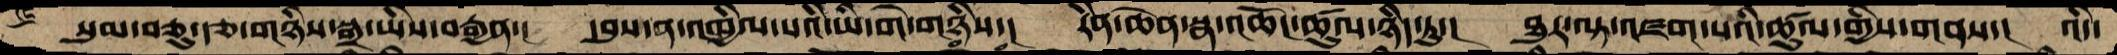སུམ་བཅུ་རྩ་གཉིས་སྒྲ་ཡིས་བརྒྱན་། དབུས་ན་འཁྱིལ་པའི་ཡི་གེ་གཉིས་། རིན་ཆེན་སྣ་འཆོང་ཚུལ་ཉིད་ཏུ་། ཐུར་ལྟ་འཛག་པའི་ཚུལ་གྱིས་གནས་། འདི་
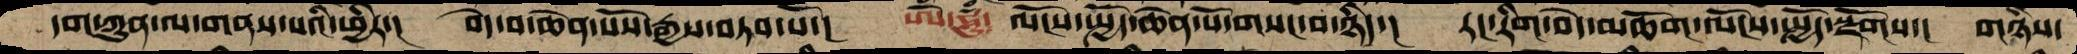དག་ཀུན་ལ་གནས་པའི་ཕྱིར་།  བདེ་བ་ཆེན་པོས་རྒྱས་བཏབ་པོ་།  ཨོཾ་ཧཱུཾ༴  ལོངས་སྤྱོད་ཆེན་པོ་གསང་བ་ཉིད་།  རང་རིག་བདེ་མཆོག་ལོངས་སྤྱོད་སྫོགས་།  གཉིས་
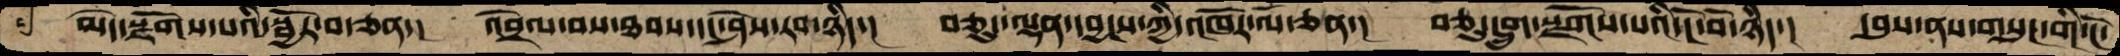མེད་སྫོགས་པའི་སྦྱོར་བ་ཅན་། འབྲེལ་བས་ཐབས་དང་ཤེས་རབ་ཉིད་། བཅུད་ལྡན་དབྱངས་ཀྱི་འཁོར་ལོ་ཅན་། བཅུ་དྲུག་སྫོགས་པའི་ངོ་བོ་ཉིད་། དབུས་ནས་གསུང་གི་ངོ་
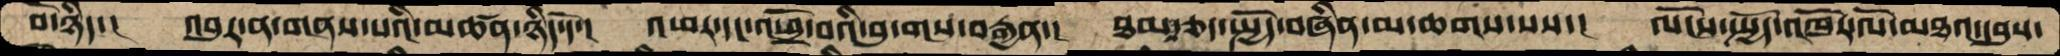བོ་ཉིད་། འབུར་ན་གནས་པའི་མཚན་ཉིད་དོ་། འཕར་དང་འཕྲོ་བའི་བུ་གས་བརྒྱན་། ཐམས་ཅད་སྤྱོད་བཞིན་མ་ཆགས་པས་། ལོངས་སྤྱོད་འཁོར་ལོ་མཐའ་དབུས་
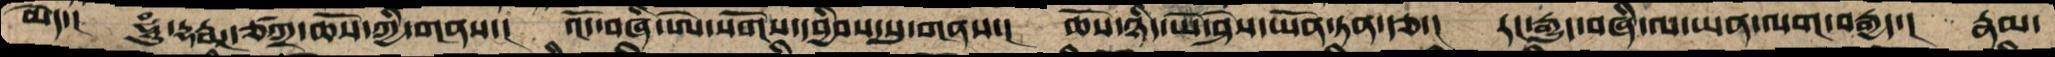མེད་།  ཧཱུཾ་དྷརྨཱ་ཙཀྲ་ཆོས་ཀྱི་གནས་།  འོད་བཞི་ཨེ་སོགས་དབྱིབས་སུ་གནས་།  ཆོས་ཉིད་ཡེ་ཤེས་ཡོན་ཏན་རྩ་།  རང་རྒྱུད་བཞི་ལ་ཡན་ལག་བརྒྱད་།  རྣམ་
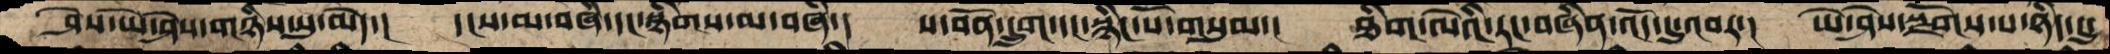ཤེས་ཡེ་ཤེས་གཉིས་སུ་མེད་།  དངས་མ་བཞི་དང་སྙིགས་མ་བཞི་།   ས་བོན་དྲུག་དང་སྙིང་པོ་གསུམ་།  ཐིག་ལེའི་རང་བཞིན་འོད་དུ་འབར་།  ཡེ་ཤེས་སྫོགས་པ་ཉིད་དུ་
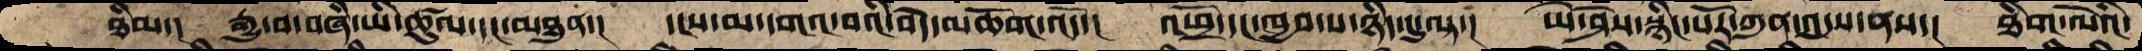ཐིམ་།  རྒྱུ་བ་བཞི་ཡི་ཚུལ་དང་མཐུན་།  དངས་མ་དགའ་བའི་བདེ་མཆོག་འོད་།  འཕྲོ་དང་ཁྱབ་པ་ཉིད་དུ་ལྟ་།  ཡེ་ཤེས་སྙིང་པོར་ཀུན་འདུས་ནས་།  ཐིག་ལེའི་
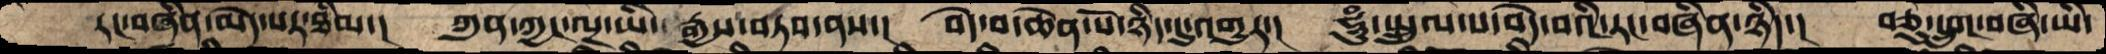རང་བཞིན་མེད་པར་ཐིམ་།  ཀུན་ཀྱང་ལྔ་ཡི་རྒྱས་བཏབ་ནས་།  བདེ་བ་ཆེན་པོ་ཉིད་དུ་འགྱུར་།  ཧཱུཾ་སྤྲུལ་པ་བདེ་བའི་རང་བཞིན་ཉིད་།  བཅུ་དྲུག་བཞི་ཡི་
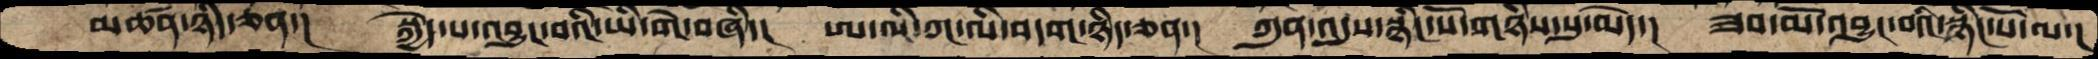མཚན་ཉིད་ཅན་།  སྐྱེད་པ་འབྱུང་བའི་ཡི་གེ་བཞི་།  ཨ་ལི་ཀ་ལི་བདག་ཉིད་ཅན་།  ཀུན་འདུས་སྙིང་པོ་གཉིས་སུ་མེད་།  ཟབ་མོ་འབྱུང་བའི་སྙིང་པོ་ལ་།
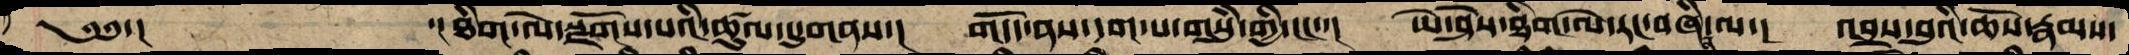༄༅་།   ་།ཐིག་ལེ་སྫོགས་པའི་ཚུལ་དུ་གནས་། གདོད་ནས་དག་པ་གསུཾ་གྱི་ངང་་། ཡེ་ཤེས་ཐིག་ལེ་རང་བཞིན་ལ་། འབྲས་བུའི་ཆོས་རྣམས་
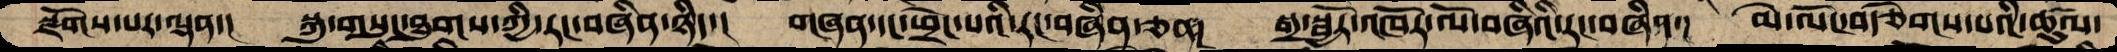སྫོགས་པར་ལྡན་།  སྐུ་གསུང་ཐུགས་ཀྱི་རང་བཞིན་ཉིད་།  གཞན་དང་ཕྲེང་པའི་རང་བཞིན་ཅན་།  སྒྲ་སྦྱོར་འཁོར་ལོ་བཞིའི་རང་བཞིན་།  མེ་ལོང་བརྩེགས་པའི་ཚུལ་
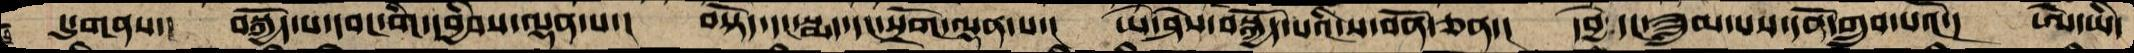དུ་གནས་། བསྐྱོད་པ་དབང་གི་དབྱིབས་ལྡན་པ་། བསྟོད་དང་སྨད་དང་སྲོག་ལྡན་པ་། ཡེ་ཤེས་བསྐྱོད་པའི་ས་བོན་ཅན་། དབྱེ་དང་ཟླུམ་པས་དོན་གྲུབ་པའོ་། ཨེ་ཡི་
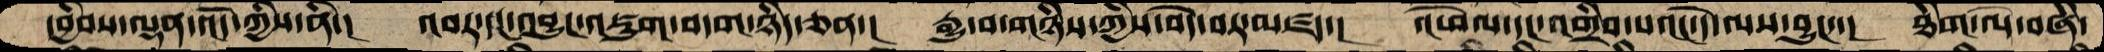དབྱིབས་ལྡན་འོད་ཀྱིས་ནི་།  འབར་དང་འབྱུང་འཇུག་བདག་ཉིད་ཅན་།  རྒྱུ་བ་གཉིས་ཀྱིས་བདེ་བར་མཛད་།  འཕེལ་དང་འགྲིབ་པའང་དེ་ལས་བྱུང་་།  ཐིག་ལེ་བཞི་
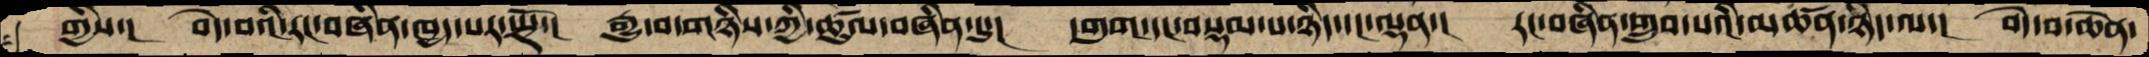གྱིས་ བདེ་བའི་རང་བཞིན་ཁྱད་པར་སྤྲོ་། རྒྱུ་བ་གཉིས་ཀྱི་ཚུལ་བཞིན་དུ་། དགུག་དང་བསྡམ་པ་ཉིད་དང་ལྡན་། རང་བཞིན་གྲུབ་པའི་མཚན་ཉིད་ལ་། བདེ་བ་ཆེན་
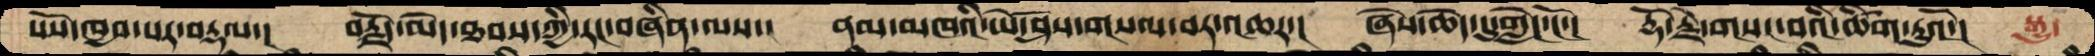པོས་ཁྱབ་པར་བརྡལ་།  བརྗོད་མེད་ཐབས་ཀྱི་རང་བཞིན་ལས་།  ནམ་མཁའི་ཡེ་ཤེས་གསལ་བར་འཆར་།  ཞེས་ཆེད་དུ་གླེང་ངོ་།  རྡོ་རྗེ་གསང་བའི་ཚིག་ཏུའོ་།  སྒྱུ་
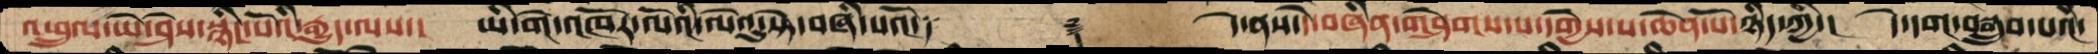འཕྲུལ་ཡེ་ཤེས་སྙིང་པོའི་རྒྱུད་ལས་།  ཡི་གེ་འཁོར་ལོའི་ལེའུ་སྟེ་བཞི་པའོ་༑   ࿑    དེ་ནས་དེ་བཞིན་གཤེགས་པ་དགྱེས་པ་ཆེན་པོ་ཉིད་ཀྱི་།  དེ་དག་བསྒྲུབ་པའི་
